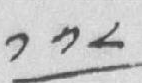༡༡༨
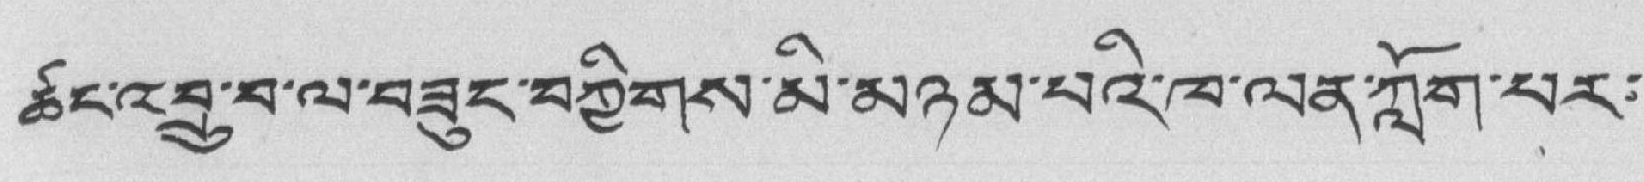ཚང་འབྲུ་བ་ལ་བཟུང་བཀྱིགས་མི་མཉམ་པའི་ཁ་ལན་ཀློག་པར་
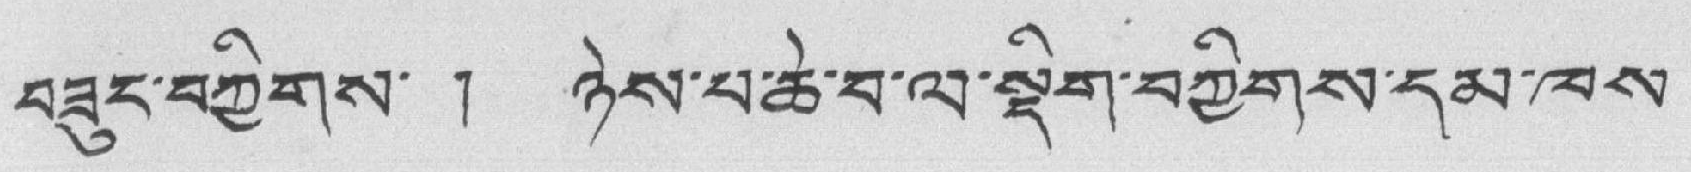བཟུང་བཀྱིགས་ ། ཉེས་པ་ཆེ་བ་ལ་སྡིག་བཀྱིགས་དམ་ཁས་
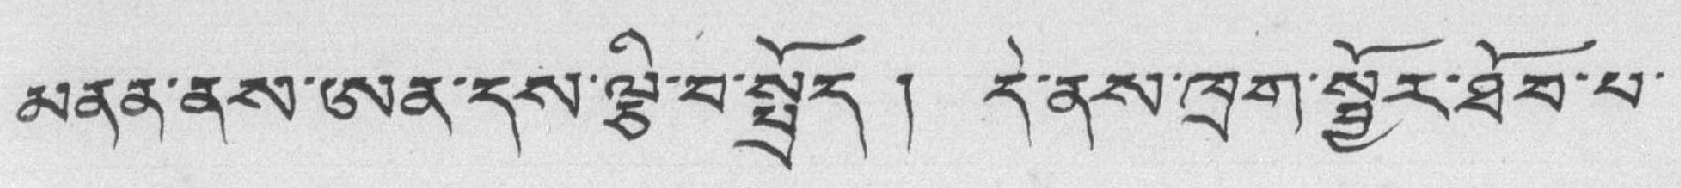མནན་ནས་ཨན་དས་ལྕི་བ་སྤྲོད། དེ་ནས་ཁྲག་སྦྱོར་ཐོབ་པ་
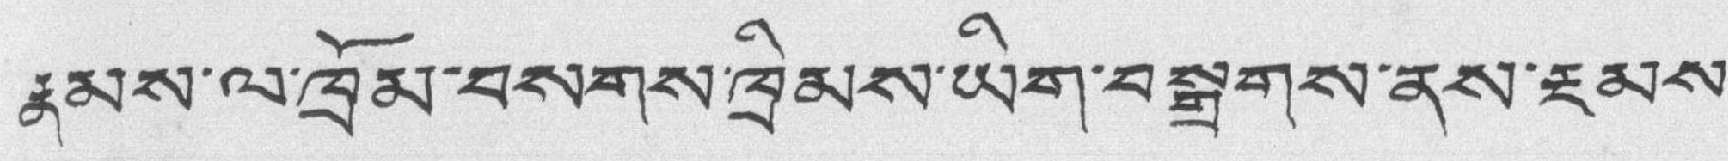རྣམས་ལ་ཁྲོམ་བསགས་ཁྲིམས་ཡིག་བསྒྲགས་ནས་རྔམས་
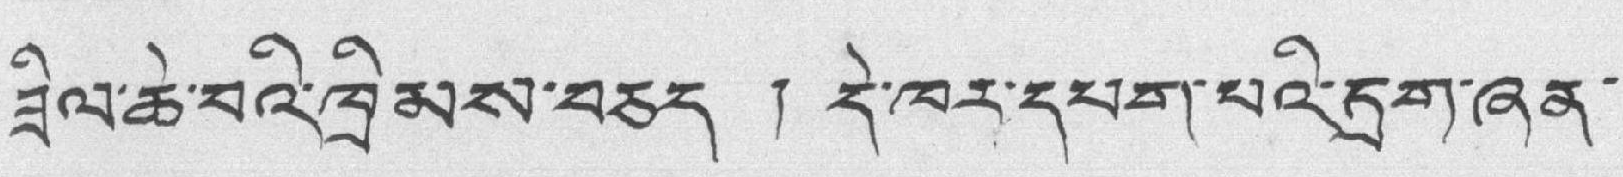ཟིལ་ཆེ་བའི་ཁྲིམས་བཅད ། དེ་ཁར་དཔག་པའི་དྲག་ཞན་
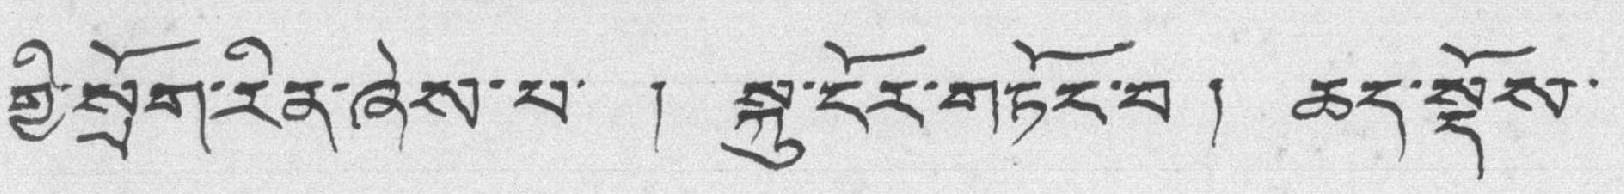གྱི་སྲོག་རིན་ཞེས་པ་ ། སྐུ་ངོར་གཏོང་བ ། ཆད་སྡོས་
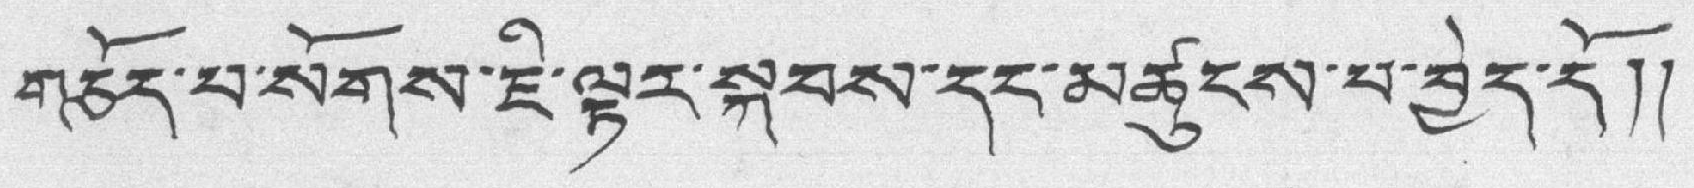གཅོད་པ་སོགས་ཇི་ལྟར་སྐབས་དང་མཚུངས་པ་བྱེད་དོ༎
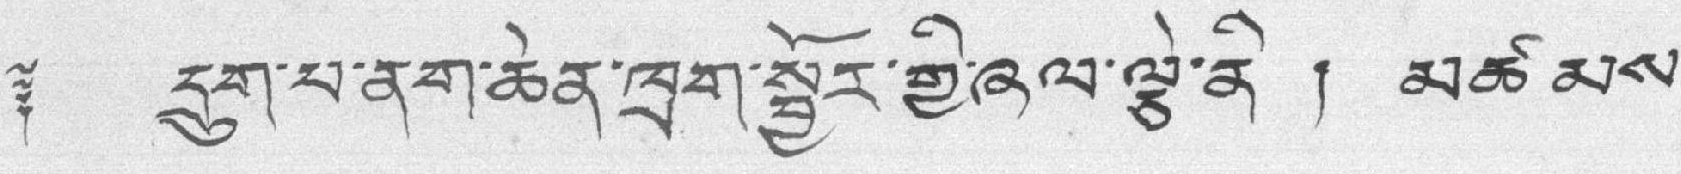༈ དྲུག་པ་ནག་ཆེན་ཁྲག་སྦྱོར་གྱི་ཞལ་ལྕེ་ནི ། མཚམས་
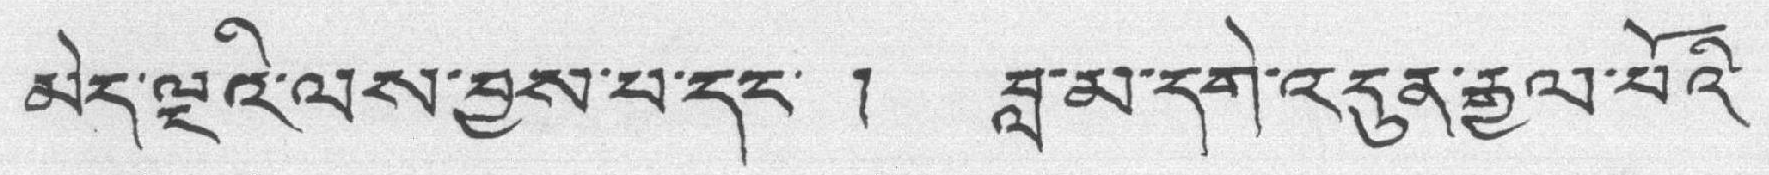མེད་ལྔའི་ལས་བྱས་པ་དང་ ། བླ་མ་དགེ་འདུན་རྒྱལ་པོའི་
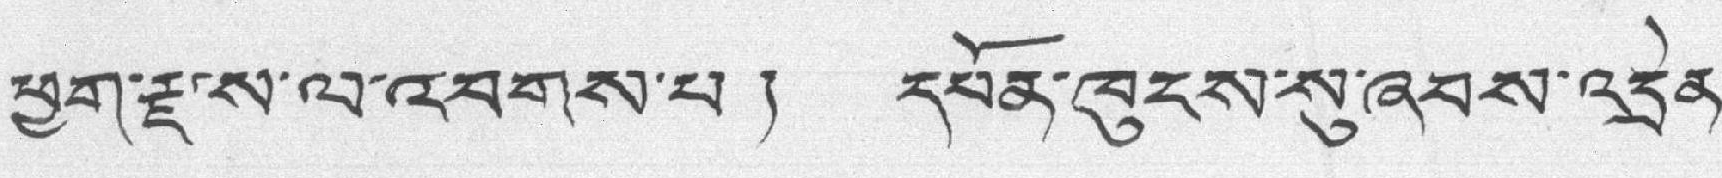ཕྱག་རྫས་ལ་འབགས་པ། དཔོན་ཁུངས་སུ་ཞབས་འདྲེན་
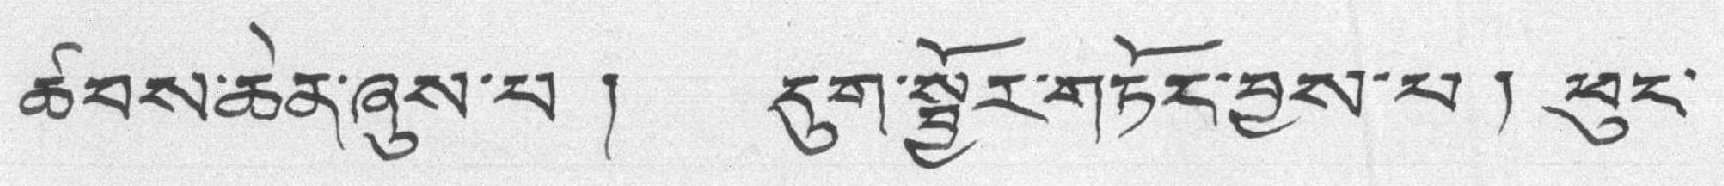ཚབས་ཆེན་ཞུས་པ ། དུག་སྦྱོར་གཏོང་བྱས་པ། ཕུང་
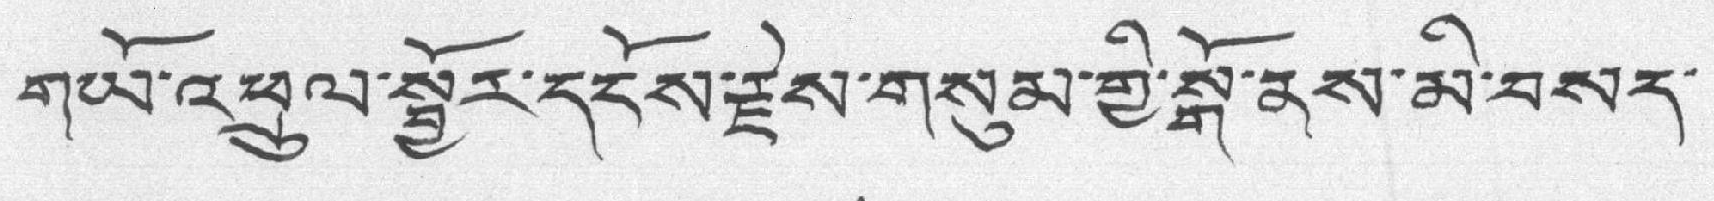གཡོ་འཕྲུལ་སྦྱོར་དངོས་རྗེས་གསུམ་གྱི་སྒོ་ནས་མི་བསད་
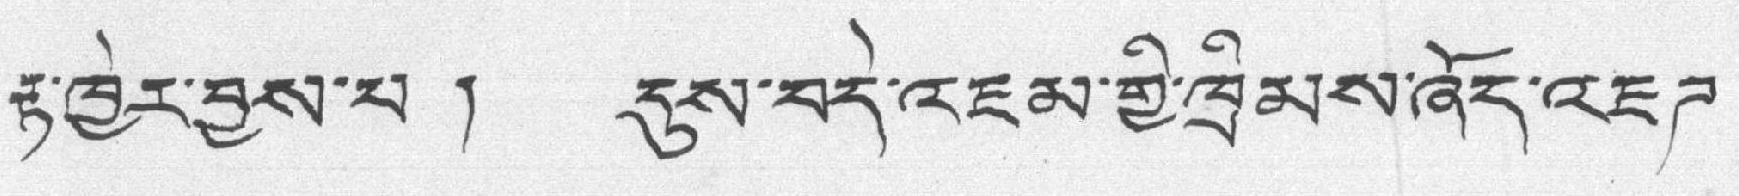རྟ་ཁྱེར་བྱས་པ ། དུས་བདེ་འཇམ་གྱི་ཁྲིམས་ཞོད་འཇཊ་
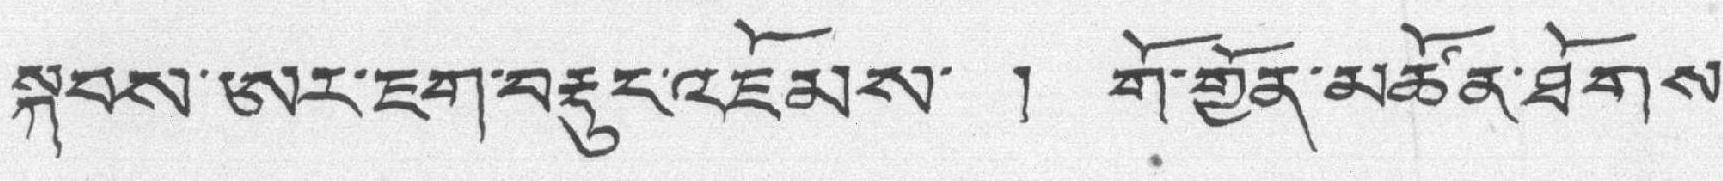སྐབས་ཨར་ཇག་བརྡུང་འཇོམས་ ། གོ་གྱོན་མཚོན་ཐོགས་
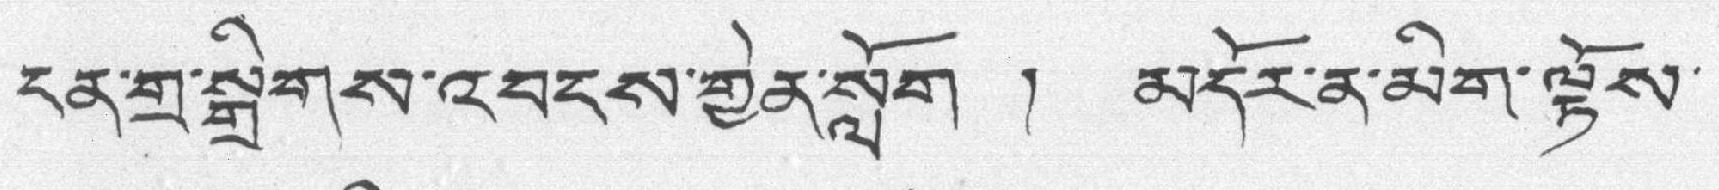ངན་གྲ་སྒྲིགས་འབངས་གྱེན་སློག ། མདོར་ན་མིག་ལྟོས་
